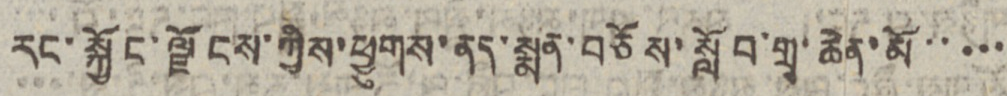རང་སྐྱོང་ལྗོངས་ཀྱིས་ཕྱུགས་ནད་སྨན་བཅོས་སློབ་གྲྭ་ཆེན་མོ་་་་་
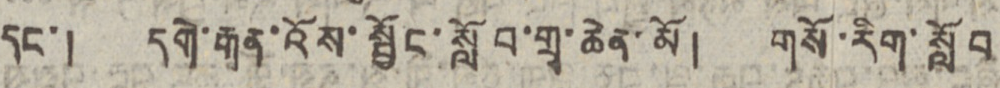དང་། དགེ་རྒན་འོས་སྦྱོང་སློབ་གྲྭ་ཆེན་མོ། གསོ་རིག་སློབ
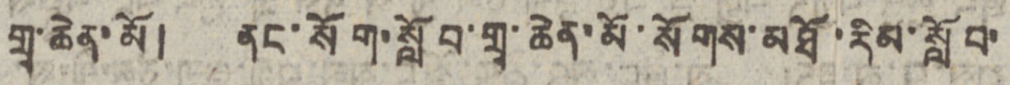གྲྭ་ཆེན་མོ། ནང་སོག་སློབ་གྲྭ་ཆེན་མོ་སོགས་མཐོ་རིམ་སློབ་
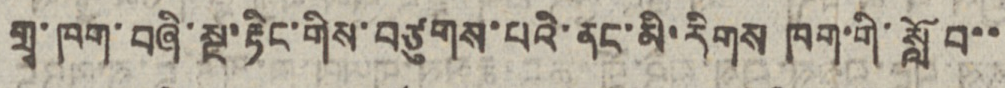གྲྭ་ཁག་བཞི་སྔ་རྟིང་གིས་བཙུགས་པའི་ནང་མི་རིགས ཁག་གི་སློབ་་
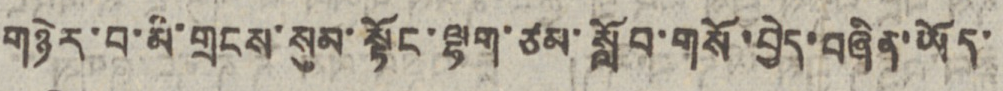གཉེར་བ་མི་གྲངས་སུམ་སྟོང་ལྷག་ཙམ་སློབ་གསོ་བྱེད་བཞིན་ཡོད་
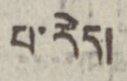པ་རེད།
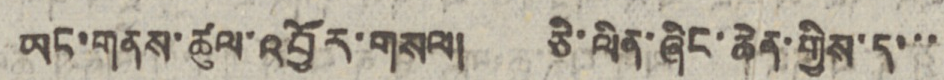ཡང་གནས་ཚུལ་འབྱོར་གསལ། ཅི་ལིན་ཞིང་ཆེན་གྱིས་ད་་་
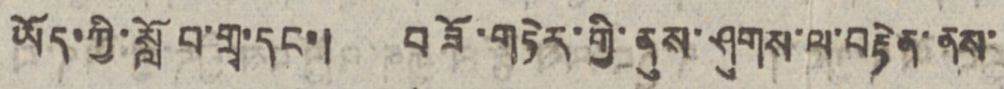ཡོད་ཀྱི་སློབ་གྲྭ་དང་། བཟོ་གཏེར་གྱི་ནུས་ཤུགས་ལ་བརྟེན་ནས་
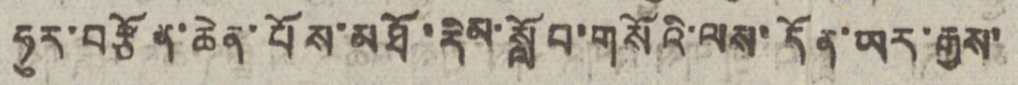ཧུར་བརྩོན་ཆེན་པོས་མཐོ་རིམ་སློབ་གསོའི་ལས་དོན་ཡར་རྒྱས་
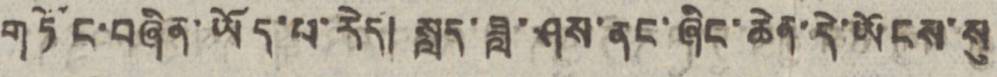གཏོང་བཞིན་ཡོད་པ་རེད། སླད་ཟླ་ཤས་ནང་ཞིང་ཆེན་དེ་ཡོངས་སུ
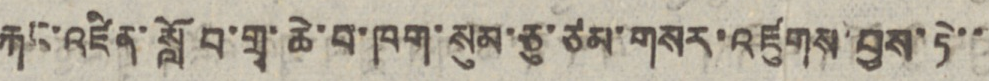རྐང་འཛིན་སློབ་གྲྭ་ཆེ་བ་ཁག་སུམ་ཅུ་ཙམ་གསར་འཛུགས་བྱས་ཏེ་་
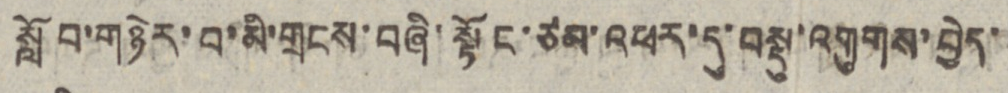སློབ་གཉེར་བ་མི་གྲངས་བཞི་སྟོང་ཙམ་འཕར་དུ་བསྡུ་འགྱགས་བྱེད་
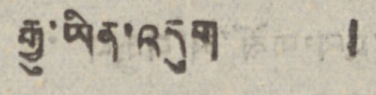རྒྱུ་ཡིན་འདུག །
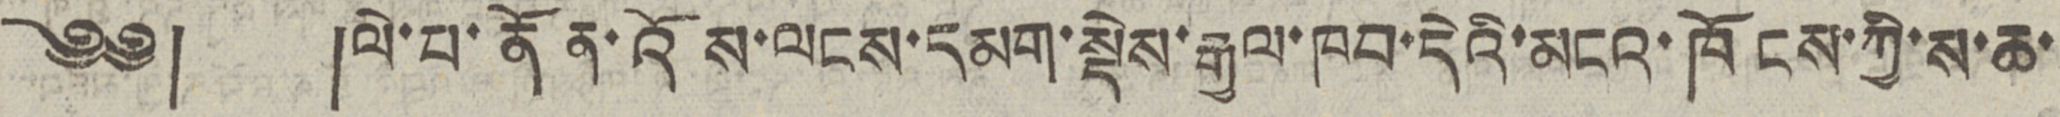༄༅། །ལེ་པ་ནོན་འོས་ལངས་དམག་སྡེས་རྒྱལ་ཁབ་དེའི་མངའ་ཁོངས་ཀྱི་ས་ཆ་
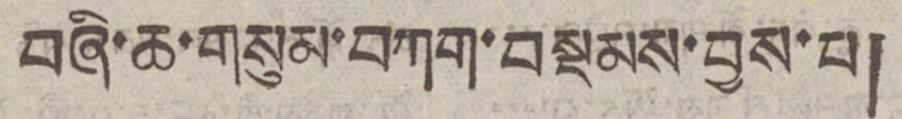བཞི་ཆ་གསུམ་བཀག་བསྡམས་བྱས་པ།
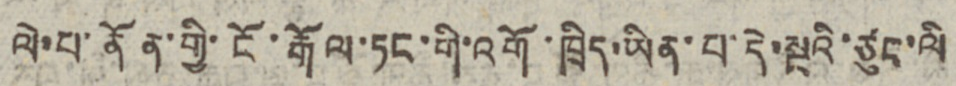ལེ་པ་ནོན་གྱི་ངོ་རྒོལ་ཏང་གི་འགོ་ཁྲིད་ཡིན་པ་དེ་སྔའི་ཙུང་ལི
